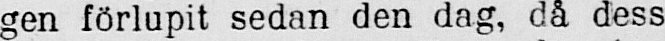gen förlupit sedan den dag, då dess
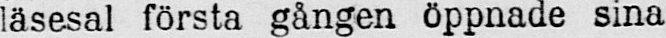läsesal första gången öppnade sina
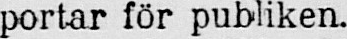portar för publiken.
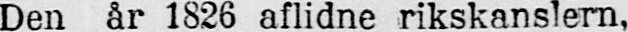Den år 1826 aflidne rikskanslern,
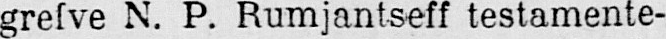grefve N. P. Rumjantseff testamente-
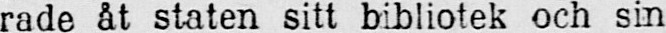rade åt staten sitt bibliotek och sin
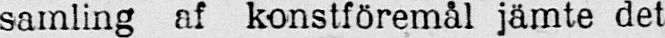samling af konstföremål jämte det
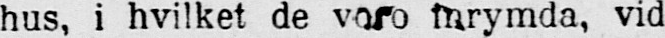hus, i hvilket de voro mrymda, vid
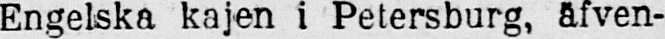Engelska kajen i Petersburg, äfven-
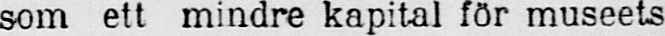som ett mindre kapital för museets
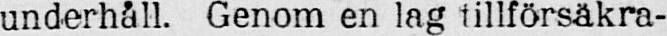underhåll. Genom en lag tillförsäkra-
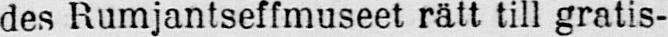des Rumjantseffmuseet rätt till gratis-
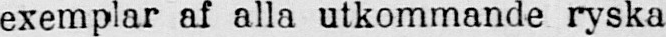exemplar af alla utkommande ryska
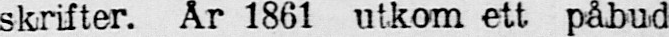skrifter. År 1861 utkom ett påbud
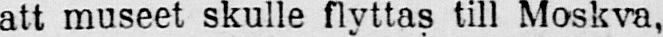att museet skulle flyttas till Moskva,
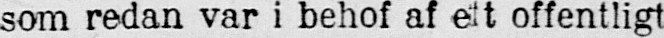som redan var i behof af elt offentligt
